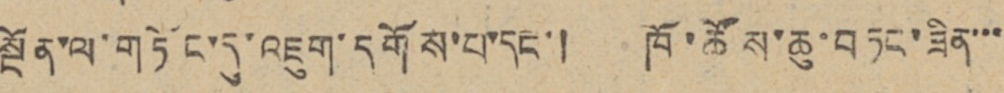སྔོན་ལ་གཏོང་དུ་འཇུག་དགོས་པ་དང་། ཁོ་ཚོས་ཆུ་བཏང་ཟིན་་་
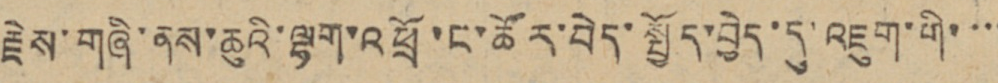རྗེས་གཞི་ནས་ཆུའི་ལྷག་འཕྲོ་ང་ཚོར་བེད་སྤྱོད་བྱེད་དུ་འཇུག་གི་་་་
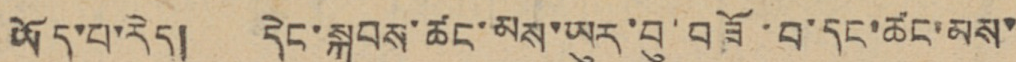ཡོད་པ་རེད། དེང་སྐབས་ཚང་མས་ཡུར་བུ་བཟོ་བ་དང་ཚང་མས་
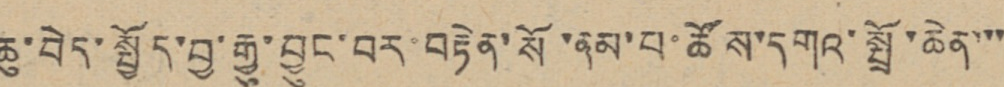ཆུ་བེད་སྤྱོད་བྱ་རྒྱུ་བྱུང་བར་བརྟེན་སོ་ནམ་པ་ཚོས་དགའ་སྤྲོ་ཆེན་་་
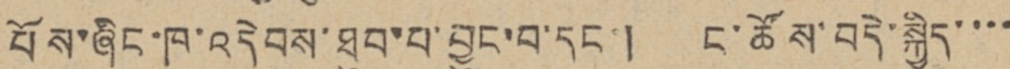པོས་ཞིང་ཁ་འདེབས་ཐུབ་པ་བྱུང་བ་དང་། ང་ཚོས་བདེ་སྐྱིད་་་་
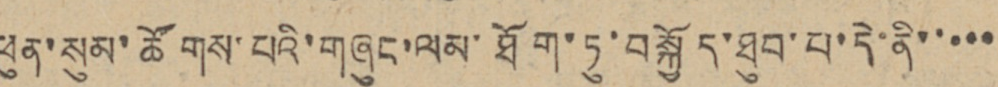ཕུན་སུམ་ཚོགས་པའི་གཞུང་ལམ་ཐོག་ཏུ་བསྐྱོད་ཐུབ་པ་དེ་ནི་་་་་
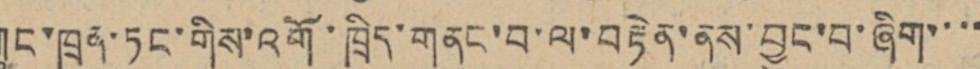གུང་ཁྲན་ཏང་གིས་འགོ་ཁྲིད་གནང་བ་ལ་བརྟེན་ནས་བྱུང་བ་ཞིག་་་་
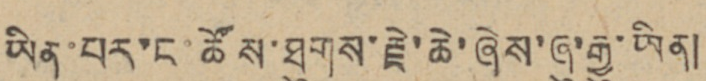ཡིན་པར་ང་ཚོས་ཐུགས་རྗེ་ཆེ་ཞེས་ཞུ་རྒྱུ་ཡིན།
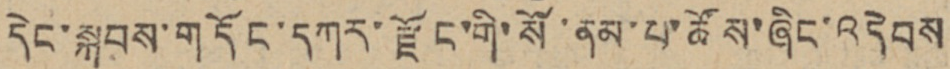དེང་སྐབས་གདོང་དཀར་རྫོང་གི་སོ་ནམ་པ་ཚོས་ཞིང་འདེབས
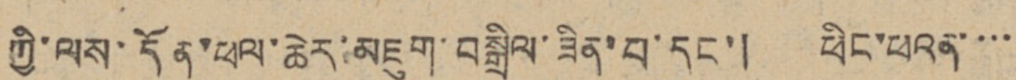ཀྱི་ལས་དོན་ཕལ་ཆེར་མཇུག་བསྒྲིལ་ཟིན་པ་དང་། ཕིང་ཕའན་་་་
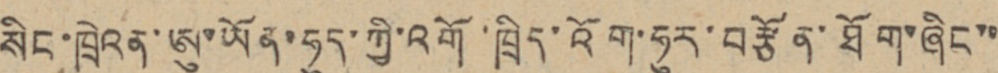སིང་ཁྲེའན་ཨུ་ཡོན་ཧུད་ཀྱི་འགོ་ཁྲིད་འོག་ཧུར་བརྩོན་ཐོག་ཞིང་་
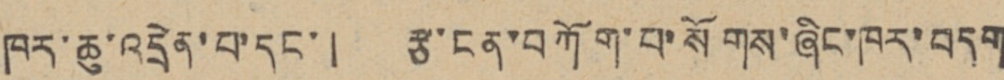ཁར་ཆུ་འདྲེན་པ་དང་། རྩ་ངན་བཀོག་པ་སོགས་ཞིང་ཁར་བདག
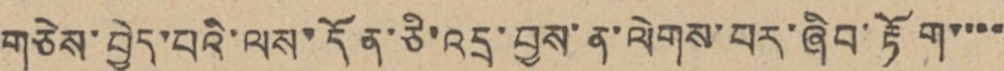གཅེས་བྱེད་པའི་ལས་དོན་ཅི་འདྲ་བྱས་ན་ལེགས་པར་ཞིབ་རྟོག་་་་
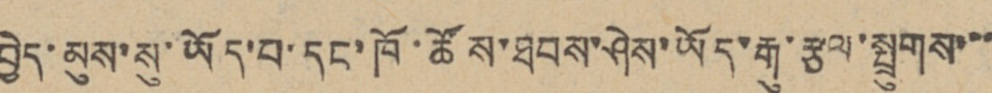བྱེད་མུས་སུ་ཡོད་པ་དང་ཁོ་ཚོས་ཐབས་ཤེས་ཡོད་རྒུ་རྩལ་སྤྲུགས་་་
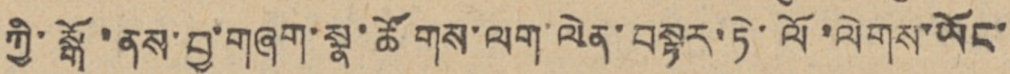ཀྱི་སྒོ་ནས་བྱ་གཞག་སྣ་ཚོགས་ལག་ལེན་བསྟར་ཏེ་ལོ་ལེགས་ཡོང་
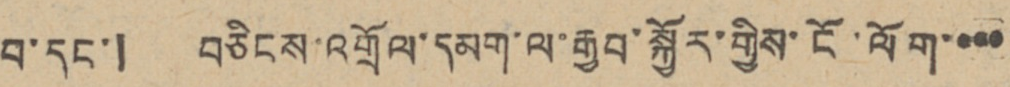བ་དང་། བཅིངས་འགྲོལ་དམག་ལ་རྒྱབ་སྐྱོར་གྱིས་ངོ་ལོག་་་་
